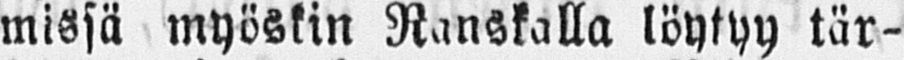missä myöskin Ranskalla löytyy tär-
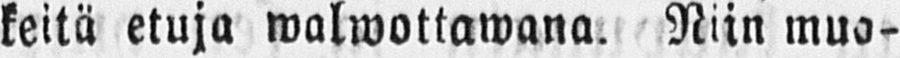keitä etuja walwottawana. Niin muo-
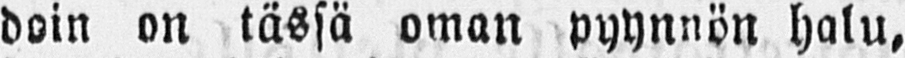doin on tässä oman pyynnön halu,
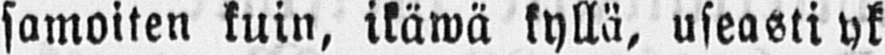samoiten kuin, ikäwä kyllä, useasti yk
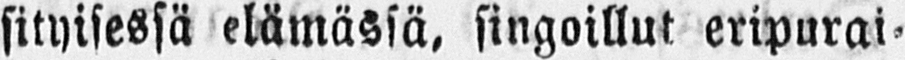sityisessä elämässä, singoillut eripurai-
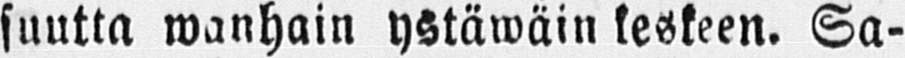suutta wanhain ystäwäin keskeen. Sa-
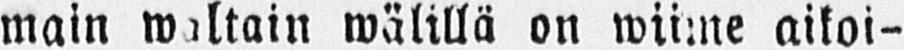main waltain wälillä on wiime aikoi-
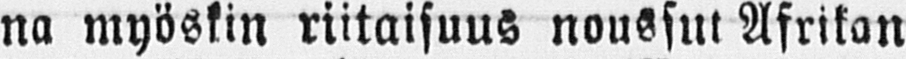na myöskin riitaisuus noussut Afrikan
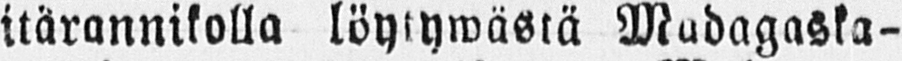itärannikolla löytywästä Madagaska-
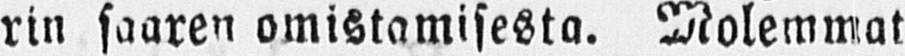rin saaren omistamisesta. Molemmat
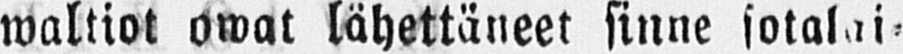waltiot owat lähettäneet sinne sotalai-
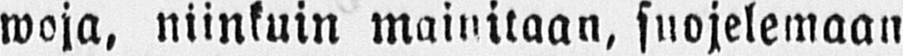woja, niinkuin mainitaan, suojelemaan
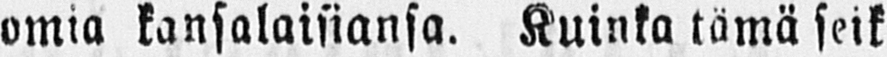omia kansalaisiansa. Kuinka tämä seik-
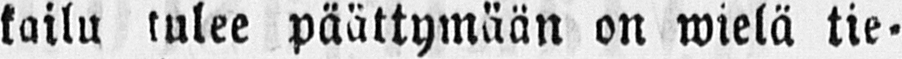kailu tulee päättymään on wielä tie-
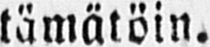tämätöin.
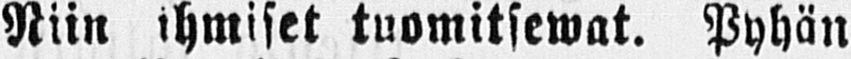Niin ihmiset tuomitsewat. Pyhän
